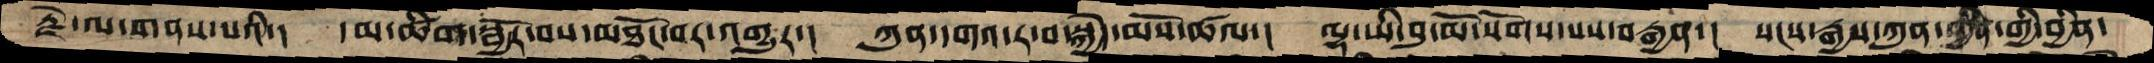རྗེ་ལ་གནས་པའི་།  དམ་ཚིག་སྦྱོར་བས་མཐོང་བར་འགྱུར་། ཀུན་དགའ་ར་བ་སྐྱེད་མོས་ཚལ་། ལྷ་ཡི་བུ་མོ་སོགས་པས་བརྒྱན་། སངས་རྒྱས་ཀུན་   གྱི་བྱིན་
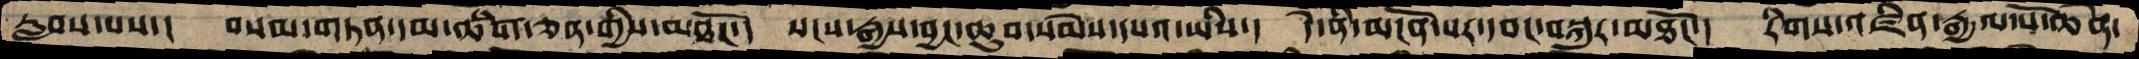རླབས་པས་།  བསམ་གཏན་དམ་ཚིག་ཅན་གྱིས་མཐོང་།  སངས་རྒྱས་བྱང་ཆུབ་སེམས་དཔའ་ཡིས་།  དེ་ནི་མངོན་པར་དབང་བསྐུར་མཐོང་།  རིགས་འཛིན་རྒྱལ་པོ་ཆེན་
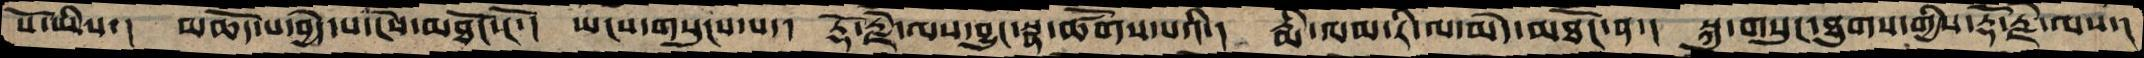སོ་ཡིས་།  མཆོད་པ་བྱེད་པ་ངེས་མཐོང་ངོ་།  ཡངས་གསུངས་པ་་  རྡོ་རྗེ་ལས་བྱུང་སྣ་ཚོགས་པའི་།  རྨི་ལམ་རི་ལ་མེད་མཐོང་ན་།  སྐུ་གསུང་ཐུགས་གྱིས་རྡོ་རྗེ་ལས་།
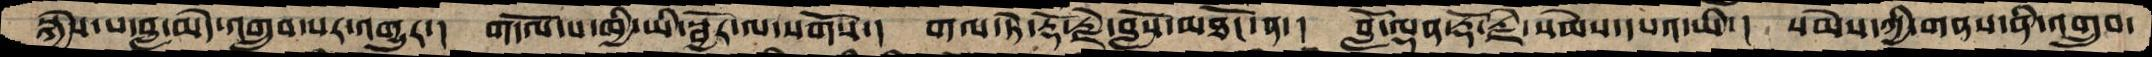སྐྱེས་པ་བླ་མེད་འགྲུབ་པར་འགྱུར་།  གདོལ་པ་ཁྱི་ཡི་སྦྱོར་ལ་སོགས་།  གལ་ཏེ་རྡོ་རྗེ་བློས་མཐོང་ན་།  བློ་ལྡན་རྡོ་རྗེ་སེམས་དཔའ་ཡི་།  སེམས་ཀྱི་གནས་ནི་འགྲུབ་
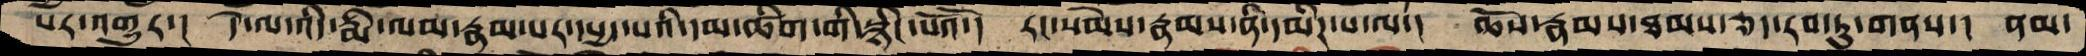པར་འགྱུར་།  དེ་ལ་འདི་རྨི་ལམ་རྣམ་པར་དཔྱད་པའི་དམ་ཚིག་གི་སྙིང་པོའོ་།   རང་སེམས་རྣམས་ནི་དམིཌ་པ་ལ་།  ཆོས་རྣམས་ཐམས་ཅད་རབ་ཏུ་གནས་།  ནམ་
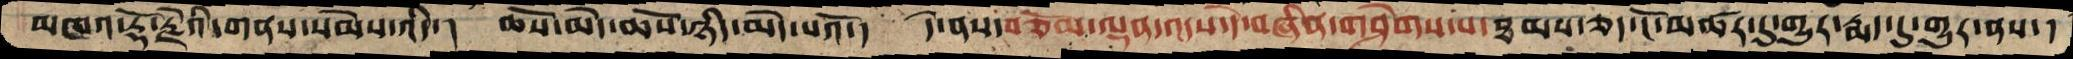མཁའ་རྡོ་རྗེའི་གནས་སེམས་འདི་།  ཆོས་མེད་ཆོས་ཉིད་མེད་པའོ་།  དེ་ནས་བཅོམ་ལྡན་འདས་དེ་བཞིན་གཤེགས་པ་ཐམས་ཅད་ངོ་མཚར་དུ་གྱུར་རྨད་དུ་གྱུར་ནས་།
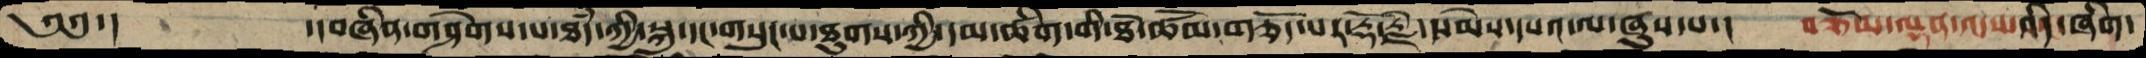༄༅་།           ་།བཞིན་གཤེགས་པ་ཐཾད་ཀྱི་སྐུ་དང་གསུང་པ་ཐུགས་ཀྱི་དམ་ཚིག་གི་ཐེ་ཚོམ་གཅོད་པར་རྡོ་རྗེ་སེམས་དཔའ་ལ་ཞུས་པ་།   བཅོམ་ལྡན་འདས་འདི་ཞིག་
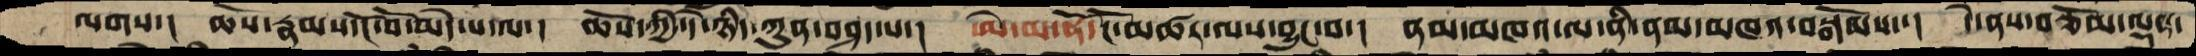ལགས་།  ཆོས་རྣམས་ངོ་བོ་མེད་པ་ལ་།  ཆོས་ཀྱི་དེ་ཉིད་ཀུན་བཤད་པ་།  ཨེ་མ་ཧོ་ངོ་མཚར་ལས་བྱུང་བ་།  ནམ་མཁའ་ལ་ནི་ནམ་མཁའ་བསྒོམས་།  དེ་ནས་བཅོམ་ལྡན་
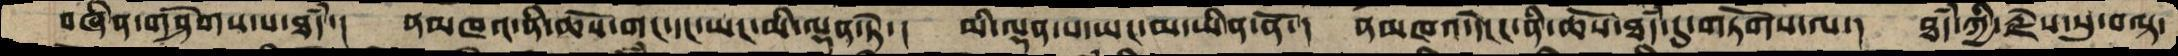བཞིན་གཤེགས་པ་ཐཾད་།    ནམཁའ་ནི་ཆོས་གང་དང་ཡང་མི་ལྡན་ཏེ་།  མི་ལྡན་པ་ཡང་མ་ཡིན་ནོ་།  ནམཁའ་དེངང་ནི་ཆོས་ཐཾད་དུ་གཏོགས་ལ་།  ཐཾད་ཀྱི་རྗེས་སུ་བལྟ་
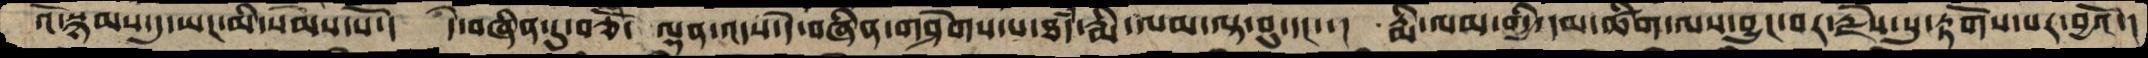འོ་སྙམས་དུ་ཡང་མི་སེམས་སོ་།   དེ་བཞིན་དུ་བཅོཾ་ ལྡན་འདས་དེ་བཞིན་གཤེགས་པ་ཐཾད་རྨི་ལམ་ལྟ་བུ་དང་་།   རྨི་ལམ་གྱི་དམ་ཚིག་ལས་བྱུང་བར་རྗེས་སུ་རྟོགས་པར་བྱའོ་།
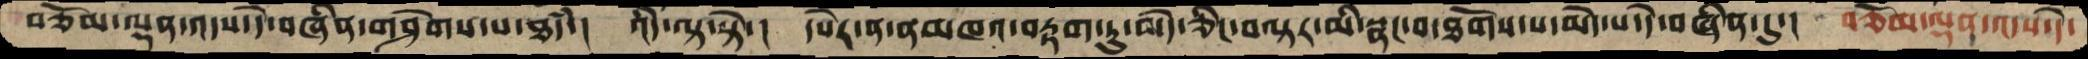བཅོམ་ལྡན་འདས་དེ་བཞིན་གཤེགས་པ་ཐཾད་།    འདི་ལྟ་སྟེ་།   དཔེར་ན་ནམཁའ་བརྟག་ཏུ་མེད་ཅིང་བལྟར་མི་སྣང་བ་ཐོགས་པ་མེད་པ་དེ་བཞིན་དུ་།   བཅོམ་ལྡན་འདས་དེ་
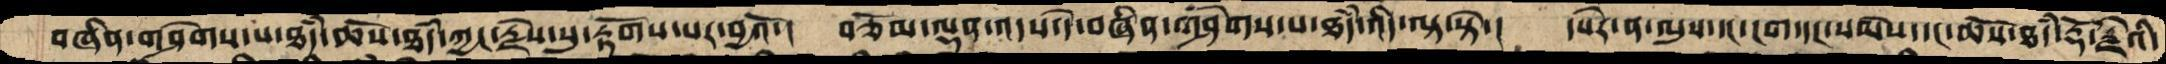བཞིན་གཤེགས་པ་ཐཾད་ཆོས་ཐཾད་ཀྱང་རྗེས་སུ་རྟོག་པར་བྱའོ་།   བཅོམ་ལྡན་འདས་དེ་བཞིན་གཤེགས་པ་ཐཾད་འདི་ལྟ་སྟེ་།   དཔེར་ན་ལུས་དང་ངག་དང་སེམས་དང་ཆོས་ཐཾད་རྡོ་རྗེའི་
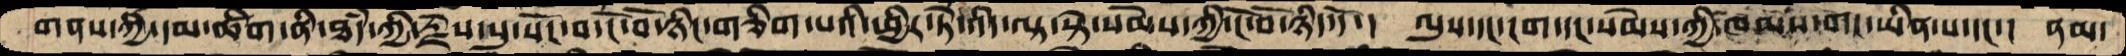གནས་ཀྱི་དམ་ཚིག་ནི་ཐཾད་ཀྱི་རྗེས་སུ་སོང་བ་ངོ་བོ་ཉིད་གཅིག་པའི་ཕྱིར་ཏེ་འདི་ལྟ་སྟེ་སེམས་ཀྱི་ངོ་བོ་ཉིད་དོ་།   ལུས་དང་ངག་དང་སེམས་ཀྱི་ཁམས་གང་ཡིན་པ་དང་།  ནམ་
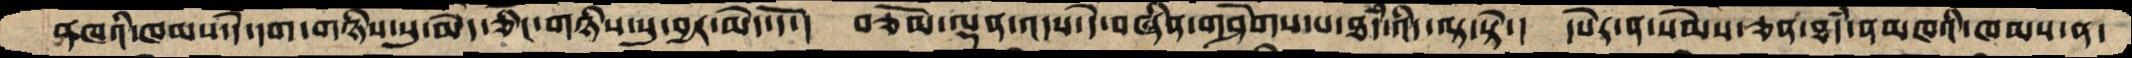ནཁའི་ཁམས་དེ་དག་གཉིས་སུ་མེད་ཅིང་གཉིས་སུ་བྱར་མེད་དོ་།   བཅོམ་ལྡན་འདས་དེ་བཞིན་གཤེགས་པ་ཐཾད་འདི་ལྟ་སྟེ་།   དཔེར་ན་སེམས་ཅན་ཐཾད་ནམཁའི་ཁམས་ན་
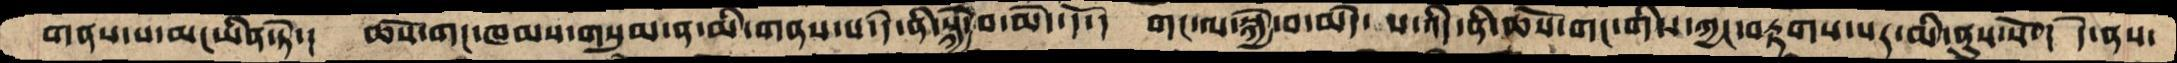གནས་པ་ཡང་ཡིན་ཏེ་།  ཆོས་གང་ཁམས་གསུམ་ན་མི་གནས་པ་དེ་ནི་སྐྱེ་བ་མེད་དོ་།   གང་ལ་སྐྱེ་བ་མེད་ པ་འདི་ནི་ཆོས་གང་གིས་ཀྱང་བརྟགས་པར་མི་ནུས་སོ་།   དེ་ནས་
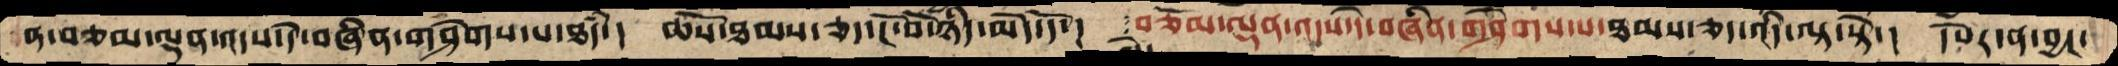ན་བཅམ་ལྡན་འདས་དེ་བཞིན་གཤེགས་པ་ཐཾད་།   ཆོས་ཐམས་ཅད་ངོ་བོ་ཉིད་མེད་དོ་།  བཅོམ་ལྡན་འདས་དེ་བཞིན་གཤེགས་པ་ཐམས་ཅད་འདི་ལྟ་སྟེ་།  དཔེར་ན་བྱང་
